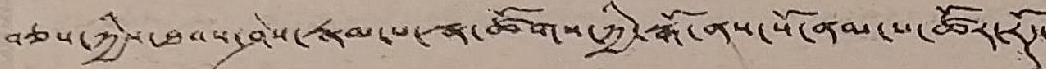བཅས་ཀྱིས་ཐབས་ཤེས་རྣམ་པ་སྣ་ཚོགས་ཀྱི་སྒོ་ནས་སོ་ནམ་པ་ཚོར་རོཊ་
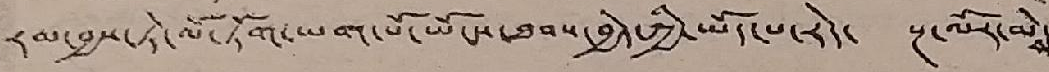རམ་བྱས་ཏེ་ལོ་ཏོག་ཡག་པོ་ཡོངས་ཐབས་བྱེད་ཀྱི་ཡོད་པ་རེད་ སྔ་ལོར་མེས་
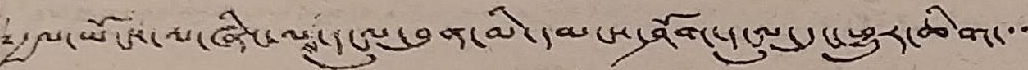༸རྒྱལ་ཡོངས་ལ་ཞིང་ལས་དངུལ་བུན་མི་དམངས་ཤོག་དངུལ་དུང་ཕྱུར་ཆིག་
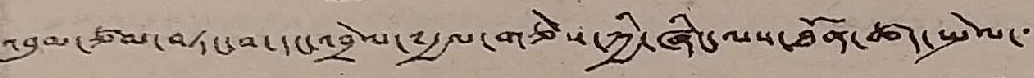འབུམ་ཙམ་བཏང་བ་དང་འབྲེལ་༸རྒྱལ་གཅེས་ཀྱི་ཞིང་ལས་ཐོན་ཚད་སྤེལ་་་
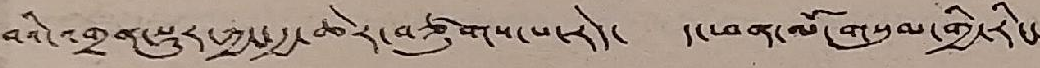བའི་འགྲན་སྡུར་ཀྱང་རྒྱ་ཆེར་བཙུགས་པ་རེད་ ད་ཕན་ལོ་གསུམ་གྱི་རིང་
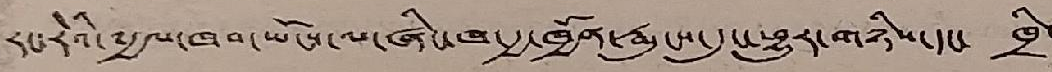རང་རེའི་༸རྒྱལ་ཁབ་ཡོངས་ལ་ཞིང་ཁ་རྒྱ་ཁྱོན་རྨུངས་དུང་ཕྱུར་གཉིས་དང་ ཁྲི་
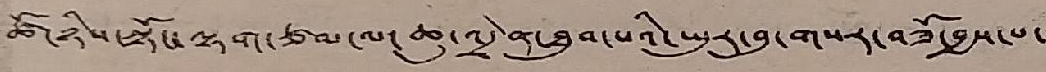ཚོ་ཉིས་སྟོང་ལྷག་ཙམ་ལ་ཆུ་འདྲེན་ཐུབ་པའི་ཡུར་བུ་གསར་བཟོ་བྱས་པ་
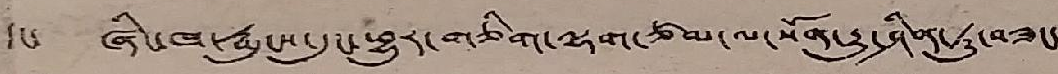དང་ ཞིང་ཁ་རྨུངས་དུང་ཕྱུར་གཅིག་ལྷག་ཙམ་ལ་སོན་རྒྱུ་ཤིན་ཏུ་བཟང་
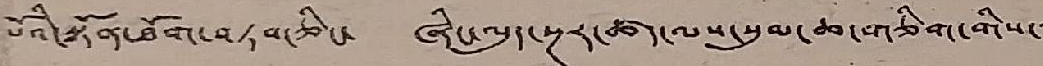པོའི་སྟོན་ཐོག་བཏབ་ཅིང་ ཞིང་ལུད་སྔར་ཚད་ལས་སུམ་ཆ་གཅིག་གིས་་་
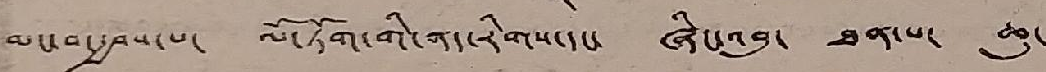མང་བ་རྒྱབས་པ་ ལོ་ཏོག་གི་ནད་རིགས་དང་ ཞིང་འབུ་ ཐན་པ་ ཆུ་
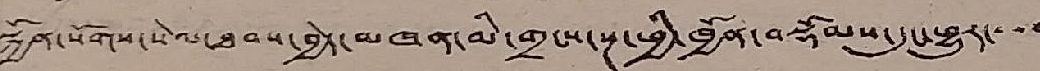སྐྱོན་སོགས་སེལ་ཐབས་བྱེད་མཁན་མི་གྲངས་སྔ་ཕྱི་ཁྱོན་བསྡོམས་དུང་ཕྱུར་་་་
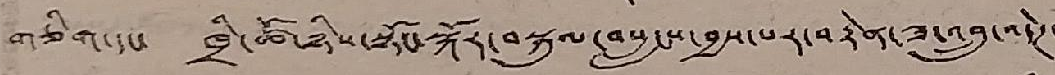གཅིག་དང་ ཁྲི་ཚོ་ཉིས་སྟོང་སྐོར་བསྐུལ་བསླངས་བྱས་པར་བརྟེན་ཟ་འབྲུ་འདེཊ་
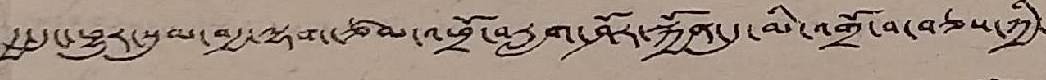རྒྱ་དུང་ཕྱུར་སུམ་བརྒྱ་ལྷག་ཙམ་འཕྲོ་བརླག་ཤོར་སྐྱོན་དུ་མི་འགྲོ་བ་བཅས་ཀྱི་
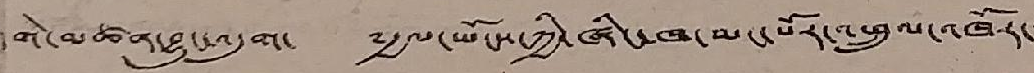དགེ་མཚན་བྱུང་འདུག་ ༸རྒྱལ་ཡོངས་ཀྱི་ཞིང་ཁ་མང་པོར་འཕྲུལ་འཁོར་
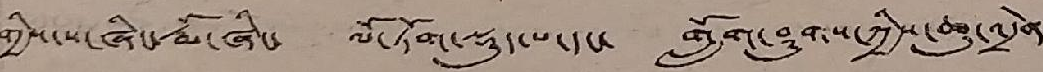གྱིས་ས་ཞིང་རྨོ་ཞིང་ ལོ་ཏོག་སྡུད་པ་དང་ གློག་ཤུགས་ཀྱིས་ཆུ་འདྲེན་
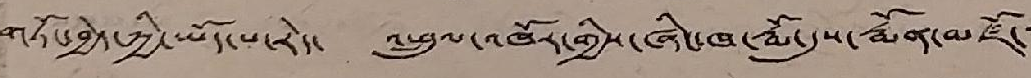གཏོང་བྱེད་ཀྱི་ཡོད་པ་རེད་ འཕྲུལ་འཁོར་གྱིས་ཞིང་ཁ་རྨོ་དུས་རྨོན་མཛོ་་་
